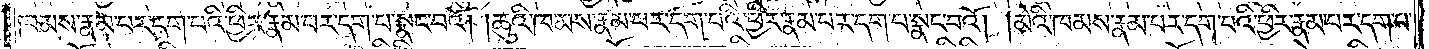ཁམས་རྣམ་པར་དག་པའི་ཕྱིར་རྣམ་པར་དག་པ་སྣང་བའོ། །ཆུའི་ཁམས་རྣམ་པར་དག་པའི་ཕྱིར་རྣམ་པར་དག་པ་སྣང་བའོ། །མེའི་ཁམས་རྣམ་པར་དག་པའི་ཕྱིར་རྣམ་པར་དག་པ་
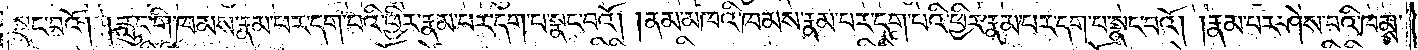སྣང་བའོ། །རླུང་གི་ཁམས་རྣམ་པར་དག་པའི་ཕྱིར་རྣམ་པར་དག་པ་སྣང་བའོ། །ནམ་མཁའི་ཁམས་རྣམ་པར་དག་པའི་ཕྱིར་རྣམ་པར་དག་པ་སྣང་བའོ། །རྣམ་པར་ཤེས་པའི་ཁམས་
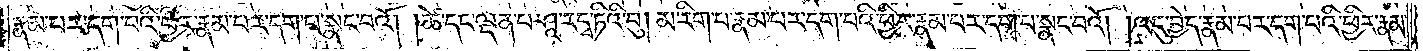རྣམ་པར་དག་པའི་ཕྱིར་རྣམ་པར་དག་པ་སྣང་བའོ། །ཚེ་དང་ལྡན་པ་ཤཱ་ར་དྭ་ཏིའི་བུ། མ་རིག་པ་རྣམ་པར་དག་པའི་ཕྱིར་རྣམ་པར་དག་པ་སྣང་བའོ། །འདུ་བྱེད་རྣམ་པར་དག་པའི་ཕྱིར་རྣམ་
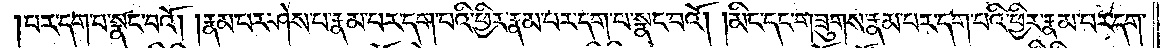པར་དག་པ་སྣང་བའོ། །རྣམ་པར་ཤེས་པ་རྣམ་པར་དག་པའི་ཕྱིར་རྣམ་པར་དག་པ་སྣང་བའོ། །མིང་དང་གཟུགས་རྣམ་པར་དག་པའི་ཕྱིར་རྣམ་པར་དག་
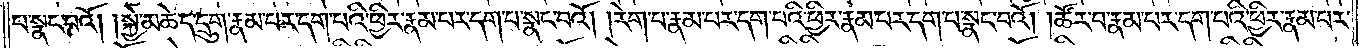པ་སྣང་བའོ། །སྐྱེ་མཆེད་དྲུག་རྣམ་པར་དག་པའི་ཕྱིར་རྣམ་པར་དག་པ་སྣང་བའོ། །རེག་པ་རྣམ་པར་དག་པའི་ཕྱིར་རྣམ་པར་དག་པ་སྣང་བའོ། །ཚོར་བ་རྣམ་པར་དག་པའི་ཕྱིར་རྣམ་པར་
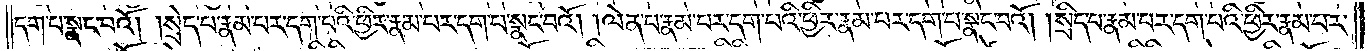དག་པ་སྣང་བའོ། །སྲེད་པ་རྣམ་པར་དག་པའི་ཕྱིར་རྣམ་པར་དག་པ་སྣང་བའོ། །ལེན་པ་རྣམ་པར་དག་པའི་ཕྱིར་རྣམ་པར་དག་པ་སྣང་བའོ། །སྲིད་པ་རྣམ་པར་དག་པའི་ཕྱིར་རྣམ་པར་
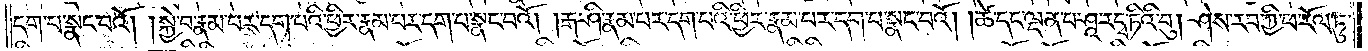དག་པ་སྣང་བའོ། །སྐྱེ་བ་རྣམ་པར་དག་པའི་ཕྱིར་རྣམ་པར་དག་པ་སྣང་བའོ། །རྒ་ཤི་རྣམ་པར་དག་པའི་ཕྱིར་རྣམ་པར་དག་པ་སྣང་བའོ། །ཚེ་དང་ལྡན་པ་ཤཱ་ར་དྭ་ཏིའི་བུ། ཤེས་རབ་ཀྱི་ཕ་རོལ་ཏུ་
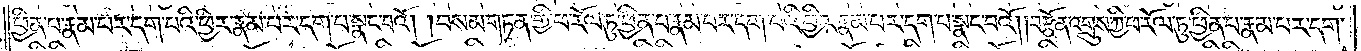ཕྱིན་པ་རྣམ་པར་དག་པའི་ཕྱིར་རྣམ་པར་དག་པ་སྣང་བའོ། །བསམ་གཏན་གྱི་ཕ་རོལ་ཏུ་ཕྱིན་པ་རྣམ་པར་དག་པའི་ཕྱིར་རྣམ་པར་དག་པ་སྣང་བའོ། །བརྩོན་འགྲུས་ཀྱི་ཕ་རོལ་ཏུ་ཕྱིན་པ་རྣམ་པར་དག་
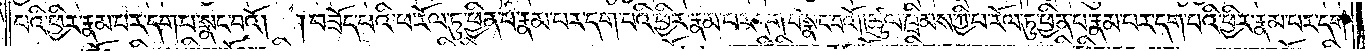པའི་ཕྱིར་རྣམ་པར་དག་པ་སྣང་བའོ། །བཟོད་པའི་ཕ་རོལ་ཏུ་ཕྱིན་པ་རྣམ་པར་དག་པའི་ཕྱིར་རྣམ་པར་དག་པ་སྣང་བའོ། །ཚུལ་ཁྲིམས་ཀྱི་ཕ་རོལ་ཏུ་ཕྱིན་པ་རྣམ་པར་དག་པའི་ཕྱིར་རྣམ་པར་དག་
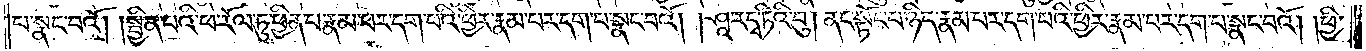པ་སྣང་བའོ། །སྦྱིན་པའི་ཕ་རོལ་ཏུ་ཕྱིན་པ་རྣམ་པར་དག་པའི་ཕྱིར་རྣམ་པར་དག་པ་སྣང་བའོ། །ཤཱ་ར་དྭ་ཏིའི་བུ། ནང་སྟོང་པ་ཉིད་རྣམ་པར་དག་པའི་ཕྱིར་རྣམ་པར་དག་པ་སྣང་བའོ། །ཕྱི་
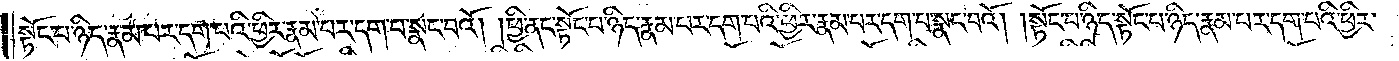སྟོང་པ་ཉིད་རྣམ་པར་དག་པའི་ཕྱིར་རྣམ་པར་དག་པ་སྣང་བའོ། །ཕྱི་ནང་སྟོང་པ་ཉིད་རྣམ་པར་དག་པའི་ཕྱིར་རྣམ་པར་དག་པ་སྣང་བའོ། །སྟོང་པ་ཉིད་སྟོང་པ་ཉིད་རྣམ་པར་དག་པའི་ཕྱིར་
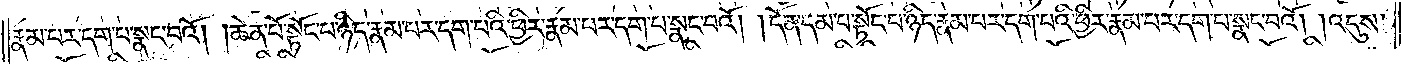རྣམ་པར་དག་པ་སྣང་བའོ། །ཆེན་པོ་སྟོང་པ་ཉིད་རྣམ་པར་དག་པའི་ཕྱིར་རྣམ་པར་དག་པ་སྣང་བའོ། །དོན་དམ་པ་སྟོང་པ་ཉིད་རྣམ་པར་དག་པའི་ཕྱིར་རྣམ་པར་དག་པ་སྣང་བའོ། །འདུས་
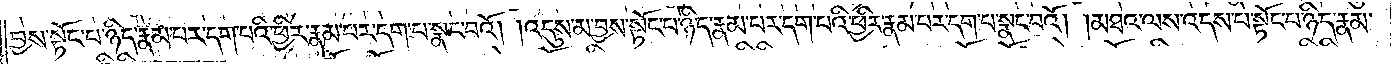བྱས་སྟོང་པ་ཉིད་རྣམ་པར་དག་པའི་ཕྱིར་རྣམ་པར་དག་པ་སྣང་བའོ། །འདུས་མ་བྱས་སྟོང་པ་ཉིད་རྣམ་པར་དག་པའི་ཕྱིར་རྣམ་པར་དག་པ་སྣང་བའོ། །མཐའ་ལས་འདས་པ་སྟོང་པ་ཉིད་རྣམ་
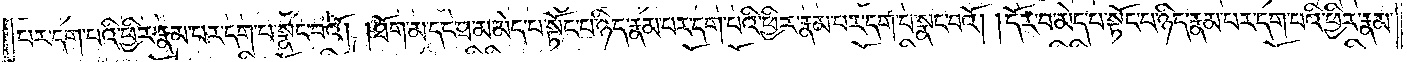པར་དག་པའི་ཕྱིར་རྣམ་པར་དག་པ་སྣང་བའོ། །ཐོག་མ་དང་ཐ་མ་མེད་པའི་སྟོང་པ་ཉིད་རྣམ་པར་དག་པའི་ཕྱིར་རྣམ་པར་དག་པ་སྣང་བའོ། །དོར་བ་མེད་པ་སྟོང་པ་ཉིད་རྣམ་པར་དག་པའི་ཕྱིར་རྣམ་
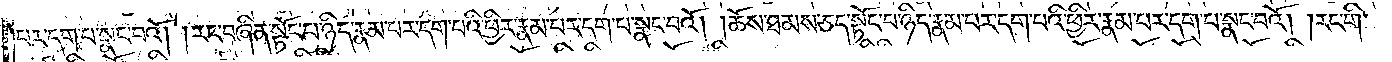པར་དག་པ་སྣང་བའོ། །རང་བཞིན་སྟོང་པ་ཉིད་རྣམ་པར་དག་པའི་ཕྱིར་རྣམ་པར་དག་པ་སྣང་བའོ། །ཆོས་ཐམས་ཅད་སྟོང་པ་ཉིད་རྣམ་པར་དག་པའི་ཕྱིར་རྣམ་པར་དག་པ་སྣང་བའོ། །རང་གི་
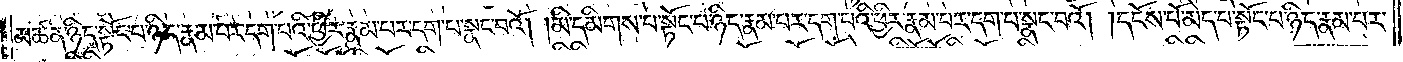མཚན་ཉིད་སྟོང་པ་ཉིད་རྣམ་པར་དག་པའི་ཕྱིར་རྣམ་པར་དག་པ་སྣང་བའོ། །མི་དམིགས་པ་སྟོང་པ་ཉིད་རྣམ་པར་དག་པའི་ཕྱིར་རྣམ་པར་དག་པ་སྣང་བའོ། །དངོས་པོ་མེད་པ་སྟོང་པ་ཉིད་རྣམ་པར་
